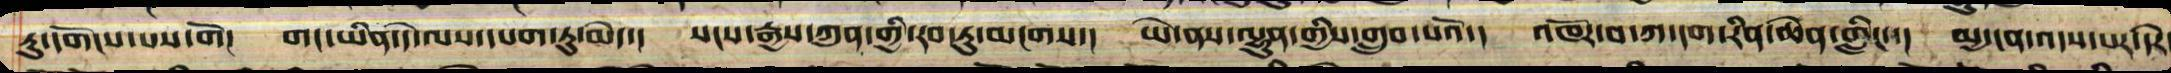ཏུ་དགོངས་པས་གོ། གང་ཡིན་དེ་ལས་དཔག་ཏུ་མེད་། སངས་རྒྱས་ཀུན་གྱིས་རབ་ཏུ་བསྔགས་། ཡེ་ནས་ལྷུན་གྱིས་གྲུབ་པའོ་། འཁོར་བ་ཀ་དག་རིན་ཆེན་གླིང་་། མྱ་ངན་འདས་པར་དེར་
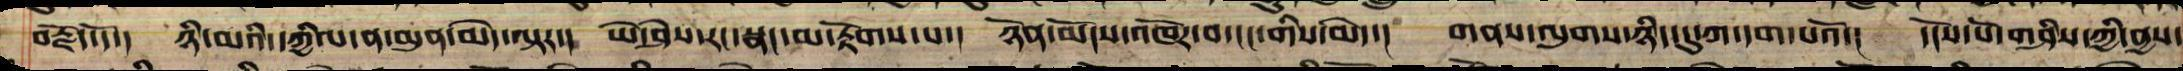བརྗོད་དོ་། ཉི་མའི་དཀྱིལ་ན་མུན་མེད་ལྟར་། ཡེ་ཤེས་རང་སྣང་མ་རྟོགས་པ་། ཉོན་མོངས་འཁོར་བ་ངང་གིས་མེད་། གནས་ལུགས་ཉིད་དུ་ཀ་དག་པའོ་། དངོས་པོ་གཤིས་ཀྱི་ནྱས་
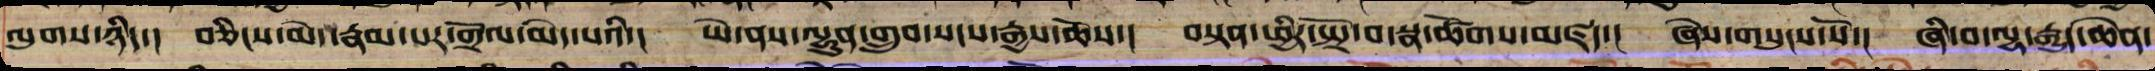ལུགས་ཉིད་། བཅིང་མེད་རྣམ་པར་གྲོལ་མེད་པའི་། ཡེ་ནས་ལྷུན་གྲུབ་སངས་རྒྱས་ཆོས་། བསྟན་ཕྱིར་སྤྲོ་བ་སྣ་ཚོགས་མཛད་། ཅེས་གསུངས་སོ་། ཞི་བ་ལྷ་རྒྱུད་ཆེན་
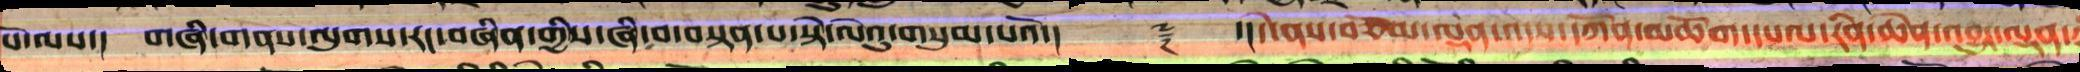པོ་ལས་། གཞི་གནས་ལུགས་རང་བཞིན་གྱིས་ཞི་བ་བསྟན་པ་སྟེ་ལེའུ་གསུམ་པའོ་།། ༈ ་།།དེ་ནས་བཅོམ་ལྡན་འདས་དཀོན་མཆོག་དཔལ་རིན་ཆེན་འབྱུང་ལྡན་
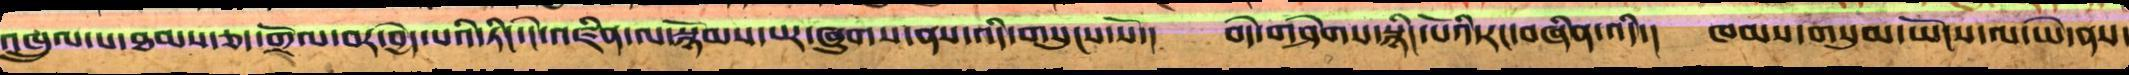འཁྲུལ་པ་ཐམས་ཅད་གྲོལ་བར་བྱེད་པའི་ཏིང་ངེ་འཛིན་ལ་སྙོམས་པར་ཞུགས་ནས་འདི་གསུངས་སོ་། བདེ་གཤེགས་སྙིང་པོའི་རང་བཞིན་འདི་། ཁམས་གསུམ་ཡོངས་ལ་ཡེ་ནས་
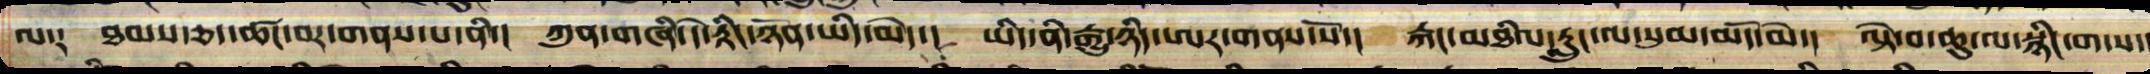ལ༑ ཐམས་ཅད་ཚང་བར་གནས་པ་ནི་། ཀུན་གཞི་དེ་རྟིང་ཉོན་ཡིད་མེད་། ཡིད་ནི་རྒྱུ་ཉིད་ཨར་གནས་སོ་། རྐང་མཐིལ་རླུང་ལ་སུམ་མདོ་མེ་། ལྟེ་བ་ཆུ་ལ་སྙིང་ག་ས་།
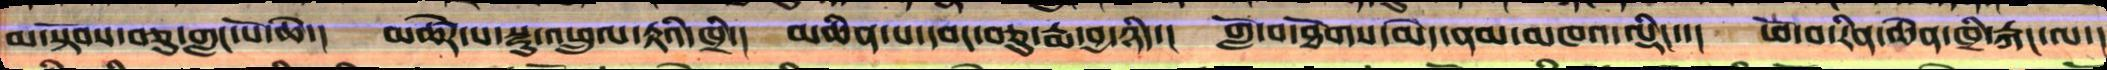མ་སྟོབས་བཅུ་གླང་པོ་ཆེ་། མཆེར་བ་སྫུ་འཕྲུལ་རྟའི་ཁྲི་། མཆིན་པ་དབང་བཅུ་རྨ་བྱ་ཉིད་། གློ་བ་ཐོགས་མེད་ནམ་མཁའ་ལྡིང་་། ཕོ་བ་རིན་ཆེན་ཁྲི་རྐང་ལ་།
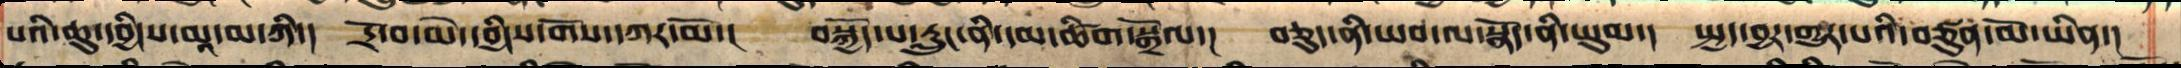པའི་ཆུ་དབྱིངས་མཱ་མ་ཀི་། དྲོ་བ་མེ་དབྱིངས་གོས་དཀར་མོ་། བསྐྱོད་པའི་རླུང་ནི་དམ་ཚིག་སྒྲོལ་། བཅུད་ནི་ཡབ་ལ་སྣོད་ནི་ཡུམ་། སྤྱད་བྱར་གྱུར་པའི་བཙུན་མོ་ཡིན་།
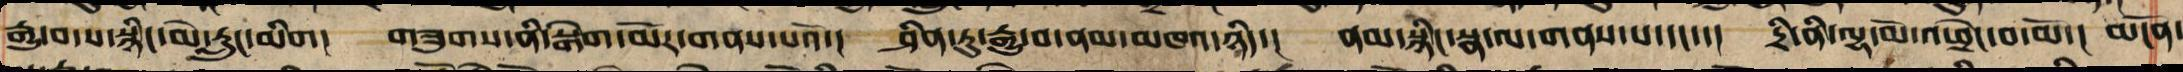རྒྱུ་བ་ས་སྙིང་མེ་རླུང་མིག། གཟུགས་ནི་སྒེག་མོར་གནས་པའོ་། ཤིན་ཏུ་རྒྱུ་བ་ནམ་མཁའ་ཉིད་། ནམ་སྙིང་སྣ་ལ་གནས་པ་དང་་། དྲི་ནི་ལྷ་མོ་ཕྲེང་བ་མོ་། མངོན་
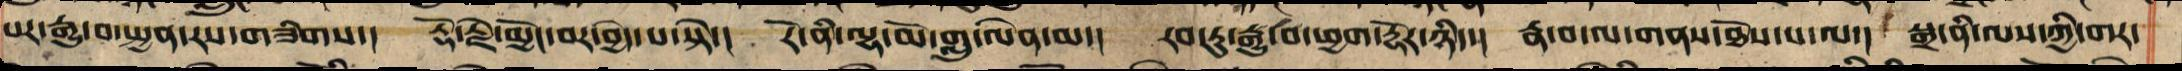པར་རྒྱུ་བ་སྤྱན་རས་གཟིགས་། རྡོ་རྗེ་མྱོང་བར་བྱེད་པ་སྟེ་། རོ་ནི་ལྷ་མོ་གླུ་ལེན་མ་། རབ་ཏུ་རྒྱུ་བ་ཕྱག་རྡོར་ཉིད་། རྣ་བ་ལ་གནས་ཐོས་པ་ལ་། སྒྲ་ནི་ལས་ཀྱི་གར་
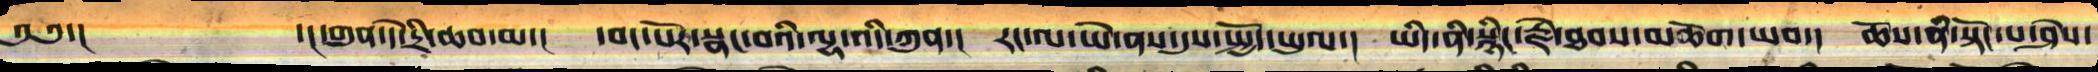༄༅་། ་།དགུན་དེ་དྲི་ཆབ་མ་། དབང་པོར་སྣང་བའི་ལྷ་འདི་ཀུན་། རང་ལ་ཡེ་ནས་དུས་སྤྱོད་ཡུལ་། ཡིད་ནི་སྙིང་རྗེ་ཐབས་མཆོག་ཡབ་། ཆོས་ནི་སྟོང་པ་ཤེས་
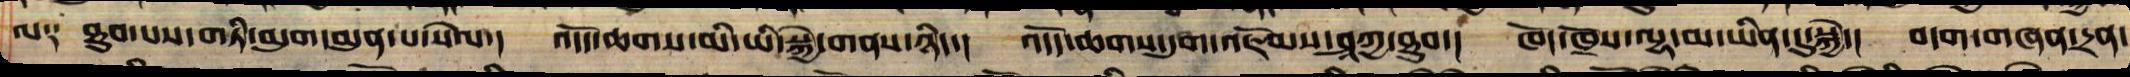ལ༑ ཐུབ་པས་གཏི་མུག་མུན་པ་སེལ་། འདོད་ཆགས་མི་ཡི་སྐྱེ་གནས་ཉིད་། འདོད་ཆགས་དུག་འཇོམས་ཤཱཀྱ་ཐུབ་། ཁོང་ཁྲོས་ལྷ་མ་ཡིན་དུ་སྐྱེ་། བདག་གཞན་དྲན་
